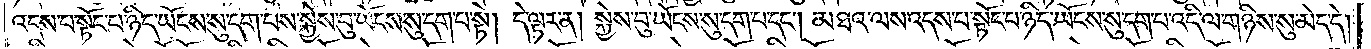འདས་པ་སྟོང་པ་ཉིད་ཡོངས་སུ་དག་པས་སྐྱེས་བུ་ཡོངས་སུ་དག་པ་སྟེ། དེ་ལྟར་ན། སྐྱེས་བུ་ཡོངས་སུ་དག་པ་དང༌། མཐའ་ལས་འདས་པ་སྟོང་པ་ཉིད་ཡོངས་སུ་དག་པ་འདི་ལ་གཉིས་སུ་མེད་དེ།
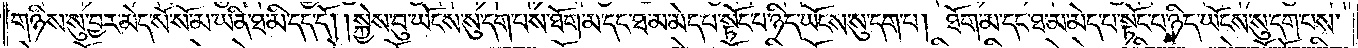གཉིས་སུ་བྱར་མེད་སོ་སོ་མ་ཡིན་ཐ་མི་དད་དོ། །སྐྱེས་བུ་ཡོངས་སུ་དག་པར་ཐོག་མ་དང་ཐ་མ་མེད་པ་སྟོང་པ་ཉིད་ཡོངས་སུ་དག་པ། ཐོག་མ་དང་ཐ་མ་མེད་པ་སྟོང་པ་ཉིད་ཡོངས་སུ་དག་པས་
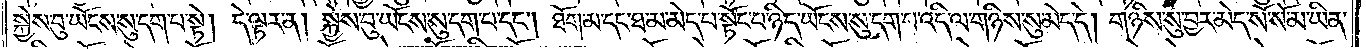སྐྱེས་བུ་ཡོངས་སུ་དག་པ་སྟེ། དེ་ལྟར་ན། སྐྱེས་བུ་ཡོངས་སུ་དག་པ་དང༌། ཐོག་མ་དང་ཐ་མ་མེད་པ་སྟོང་པ་ཉིད་ཡོངས་སུ་དག་པ་འདི་ལ་གཉིས་སུ་མེད་དེ། གཉིས་སུ་བྱར་མེད་སོ་སོ་མ་ཡིན་
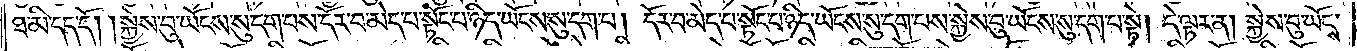ཐ་མི་དད་དོ། །སྐྱེས་བུ་ཡོངས་སུ་དག་པས་དོར་བ་མེད་པ་སྟོང་པ་ཉིད་ཡོངས་སུ་དག་པ། དོར་བ་མེད་པ་སྟོང་པ་ཉིད་ཡོངས་སུ་དག་པས་སྐྱེས་བུ་ཡོངས་སུ་དག་པ་སྟེ། དེ་ལྟར་ན། སྐྱེས་བུ་ཡོངས་
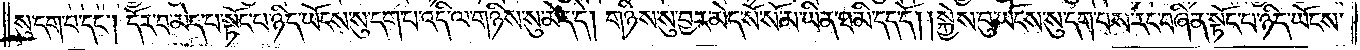སུ་དག་པ་དང༌། དོར་བ་མེད་པ་སྟོང་པ་ཉིད་ཡོངས་སུ་དག་པ་འདི་ལ་གཉིས་སུ་མེད་དེ། གཉིས་སུ་བྱར་མེད་སོ་སོ་མ་ཡིན་ཐ་མི་དད་དོ། །སྐྱེས་བུ་ཡོངས་སུ་དག་པས་རང་བཞིན་སྟོང་པ་ཉིད་ཡོངས་
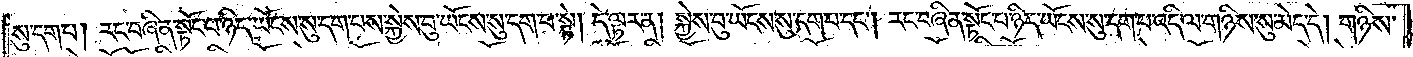སུ་དག་པ། རང་བཞིན་སྟོང་པ་ཉིད་ཡོངས་སུ་དག་པས་སྐྱེས་བུ་ཡོངས་སུ་དག་པ་སྟེ། དེ་ལྟར་ན། སྐྱེས་བུ་ཡོངས་སུ་དག་པ་དང༌། རང་བཞིན་སྟོང་པ་ཉིད་ཡོངས་སུ་དག་པ་འདི་ལ་གཉིས་སུ་མེད་དེ། གཉིས་
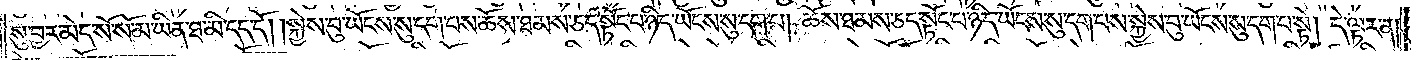སུ་བྱར་མེད་སོ་སོ་མ་ཡིན་ཐ་མི་དད་དོ། །སྐྱེས་བུ་ཡོངས་སུ་དག་པས་ཆོས་ཐམས་ཅད་སྟོང་པ་ཉིད་ཡོངས་སུ་དག་པ། ཆོས་ཐམས་ཅད་སྟོང་པ་ཉིད་ཡོངས་སུ་དག་པས་སྐྱེས་བུ་ཡོངས་སུ་དག་པ་སྟེ། དེ་ལྟར་ན།
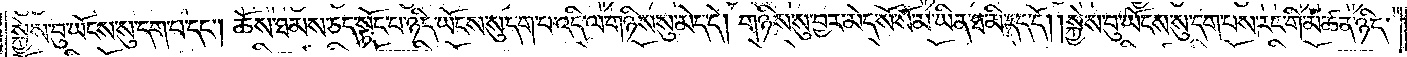སྐྱེས་བུ་ཡོངས་སུ་དག་པ་དང༌། ཆོས་ཐམས་ཅད་སྟོང་པ་ཉིད་ཡོངས་སུ་དག་པ་འདི་ལ་གཉིས་སུ་མེད་དེ། གཉིས་སུ་བྱར་མེད་སོ་སོ་མ་ཡིན་ཐ་མི་དད་དོ། །སྐྱེས་བུ་ཡོངས་སུ་དག་པས་རང་གི་མཚན་ཉིད་
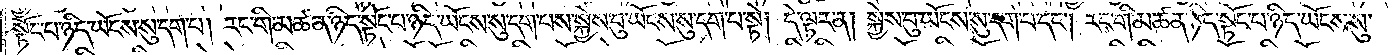སྟོང་པ་ཉིད་ཡོངས་སུ་དག་པ། རང་གི་མཚན་ཉིད་སྟོང་པ་ཉིད་ཡོངས་སུ་དག་པས་སྐྱེས་བུ་ཡོངས་སུ་དག་པ་སྟེ། དེ་ལྟར་ན། སྐྱེས་བུ་ཡོངས་སུ་དག་པ་དང༌། རང་གི་མཚན་ཉིད་སྟོང་པ་ཉིད་ཡོངས་སུ་
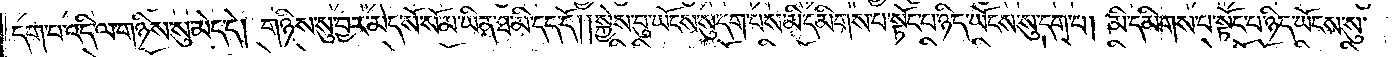དག་པ་འདི་ལ་གཉིས་སུ་མེད་དེ། གཉིས་སུ་བྱར་མེད་སོ་སོ་མ་ཡིན་ཐ་མི་དད་དོ། །སྐྱེས་བུ་ཡོངས་སུ་དག་པས་མི་དམིགས་པ་སྟོང་པ་ཉིད་ཡོངས་སུ་དག་པ། མི་དམིགས་པ་སྟོང་པ་ཉིད་ཡོངས་སུ་
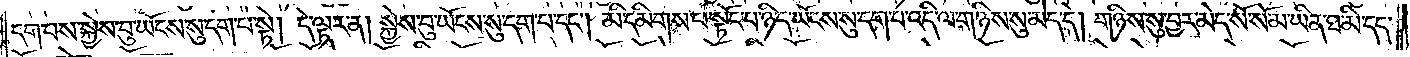དག་པས་སྐྱེས་བུ་ཡོངས་སུ་དག་པ་སྟེ། དེ་ལྟར་ན། སྐྱེས་བུ་ཡོངས་སུ་དག་པ་དང༌། མི་དམིགས་པ་སྟོང་པ་ཉིད་ཡོངས་སུ་དག་པ་འདི་ལ་གཉིས་སུ་མེད་དེ། གཉིས་སུ་བྱར་མེད་སོ་སོ་མ་ཡིན་ཐ་མི་དད་
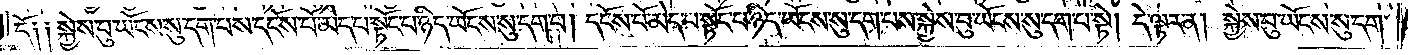དོ༑ ༑སྐྱེས་བུ་ཡོངས་སུ་དག་པས་དངོས་པོ་མེད་པ་སྟོང་པ་ཉིད་ཡོངས་སུ་དག་པ། དངོས་པོ་མེད་པ་སྟོང་པ་ཉིད་ཡོངས་སུ་དག་པས་སྐྱེས་བུ་ཡོངས་སུ་དག་པ་སྟེ། དེ་ལྟར་ན། སྐྱེས་བུ་ཡོངས་སུ་དག་
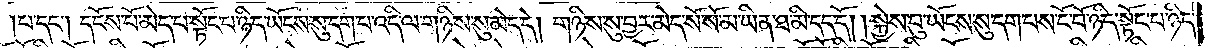པ་དང༌། དངོས་པོ་མེད་པ་སྟོང་པ་ཉིད་ཡོངས་སུ་དག་པ་འདི་ལ་གཉིས་སུ་མེད་དེ། གཉིས་སུ་བྱར་མེད་སོ་སོ་མ་ཡིན་ཐ་མི་དད་དོ། །སྐྱེས་བུ་ཡོངས་སུ་དག་པས་ངོ་བོ་ཉིད་སྟོང་པ་ཉིད་
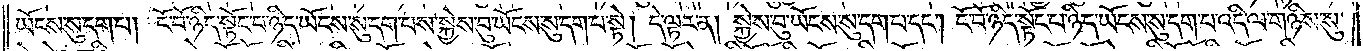ཡོངས་སུ་དག་པ། ངོ་བོ་ཉིད་སྟོང་པ་ཉིད་ཡོངས་སུ་དག་པས་སྐྱེས་བུ་ཡོངས་སུ་དག་པ་སྟེ། དེ་ལྟར་ན། སྐྱེས་བུ་ཡོངས་སུ་དག་པ་དང༌། ངོ་བོ་ཉིད་སྟོང་པ་ཉིད་ཡོངས་སུ་དག་པ་འདི་ལ་གཉིས་སུ་
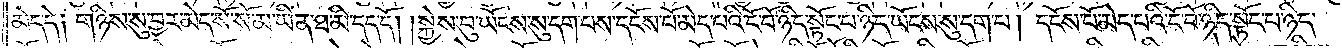མེད་དེ༑ གཉིས་སུ་བྱར་མེད་སོ་སོ་མ་ཡིན་ཐ་མི་དད་དོ། །སྐྱེས་བུ་ཡོངས་སུ་དག་པས་དངོས་པོ་མེད་པའི་ངོ་བོ་ཉིད་སྟོང་པ་ཉིད་ཡོངས་སུ་དག་པ། དངོས་པོ་མེད་པའི་ངོ་བོ་ཉིད་སྟོང་པ་ཉིད་
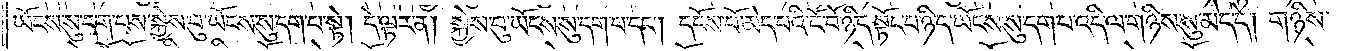ཡོངས་སུ་དག་པས་སྐྱེས་བུ་ཡོངས་སུ་དག་པ་སྟེ། དེ་ལྟར་ན། སྐྱེས་བུ་ཡོངས་སུ་དག་པ་དང༌། དངོས་པོ་མེད་པའི་ངོ་བོ་ཉིད་སྟོང་པ་ཉིད་ཡོངས་སུ་དག་པ་འདི་ལ་གཉིས་སུ་མེད་དེ། གཉིས་
